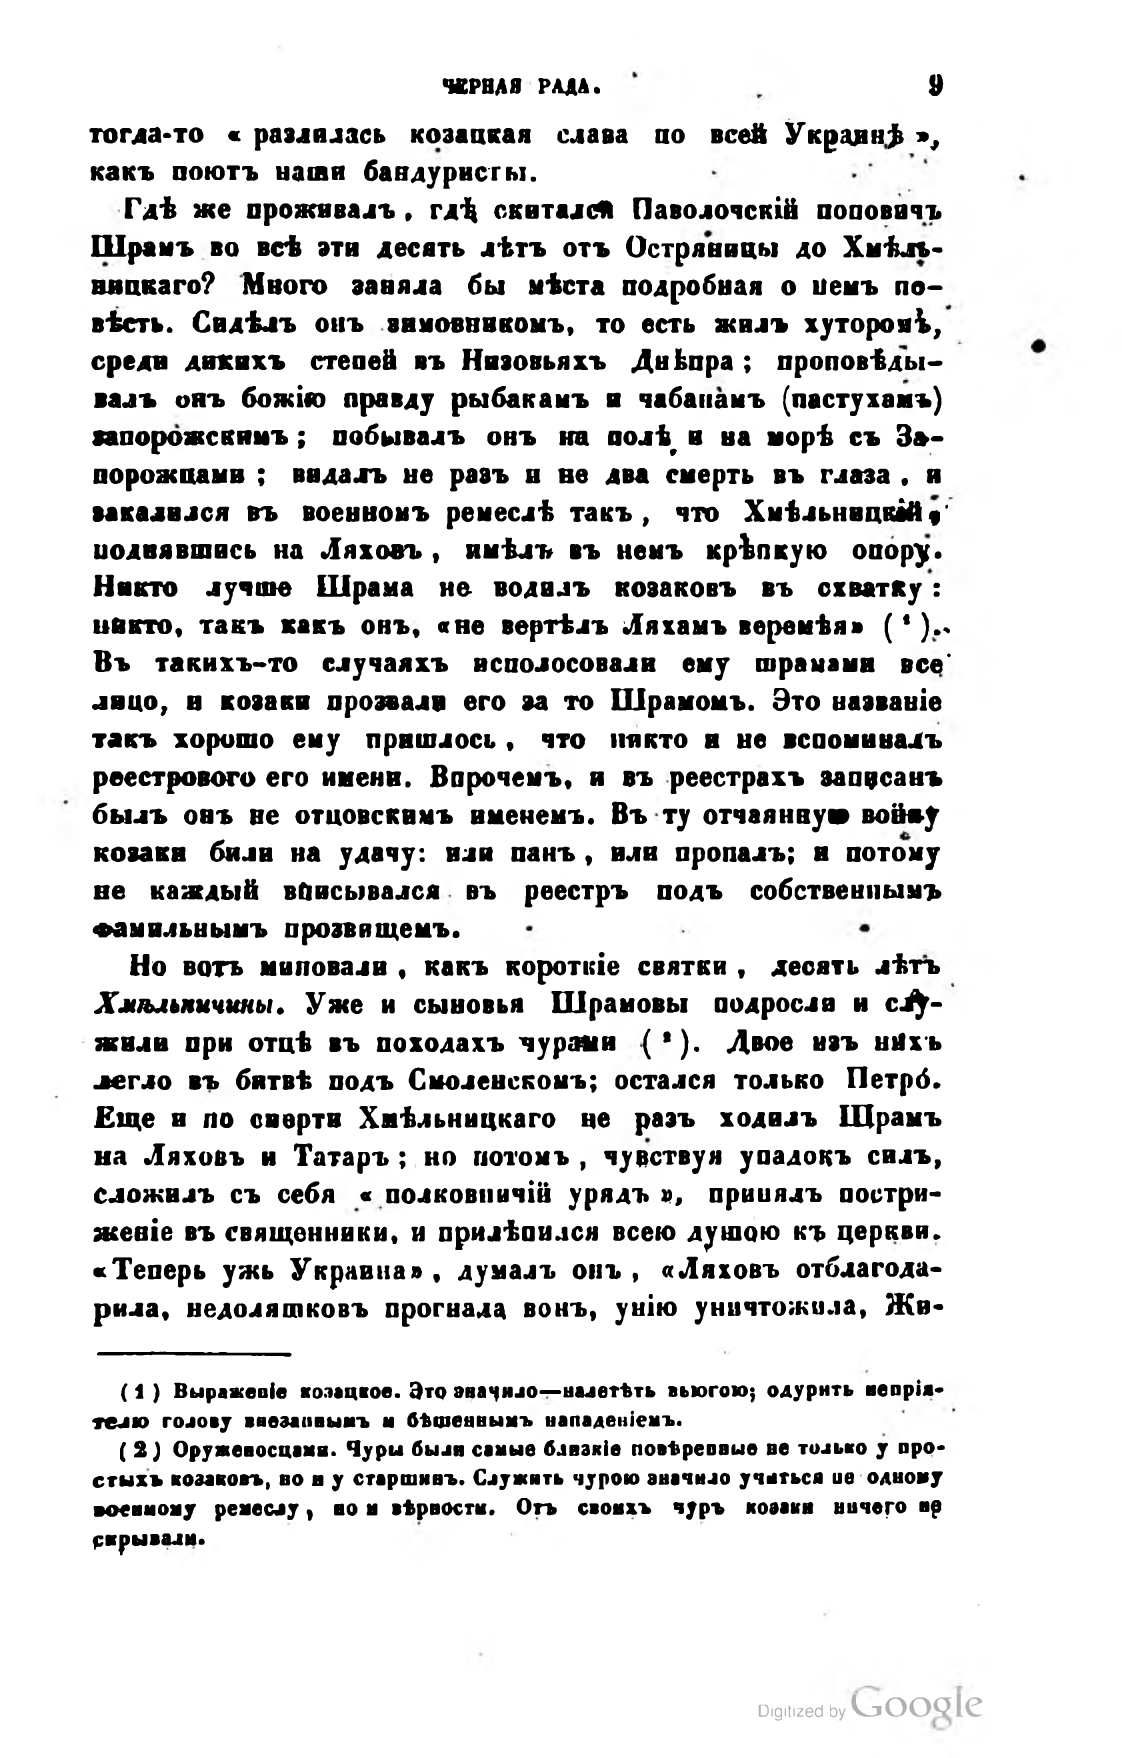ЧЕРНАЯ РАДА.                             9
тогда-то «разлилась козацкая слава по всей Украинѣ», какъ поютъ наши бандуристы.
Гдѣ же проживалъ, гдѣ скитался Паволочскій поповичъ Шрамъ во всѣ эти десять лѣтъ отъ Остряницы до Хмѣльницкаго? Много заняла бы мѣста подробная о немъ повѣсть. Сидѣлъ онъ зимовникомъ, то есть жилъ хуторомѣ, среди дикихъ степей въ Низовьяхъ Днѣпра; проповѣдывалъ онъ божію правду рыбакамъ и чабанамъ (пастухамъ) запорожскимъ; побывалъ онъ на полѣ, и на морѣ съ Запорожцами; видалъ не разъ и не два смерть въ глаза, и закалился въ военномъ ремеслѣ такъ, что Хмѣльницкій, поднявшись на Ляховъ, имѣлъ въ немъ крѣпкую опору. Никто лучше Шрама не водилъ Козаковъ въ схватку: никто, такъ какъ онъ, «не вертѣлъ Ляхамъ веремѣя» ( 1 ).Въ такихъ-то случаяхъ исполосовали ему шрамами все лицо, и козаки прозвали его за то Шрамомъ. Это названіе такъ хорошо ему пришлось, что никто и не вспоминалъ реестрового его имени. Впрочемъ, и въ реестрахъ записанъ былъ онъ не отцовскимъ именемъ. Въ ту отчаянную войну козаки били на удачу: или панъ, или пропалъ; и потому не каждый вписывался въ реестръ подъ собственнымъ фамильнымъ прозвищемъ.
Но вотъ миновали, какъ короткіе святки, десять лѣтъ Хмѣльничины. Уже и сыновья Шрамовы подросли и служили при отцѣ въ походахъ чурами ( 2 ). Двое изъ нихъ легло въ битвѣ подъ Смоленскомъ; остался только Петро. Еще и по смерти Хмѣльницкаго не разъ ходилъ Шрамъ на Ляховъ и Татаръ; но потомъ, чувствуя упадокъ силъ, сложилъ съ себя «полковничій урядъ», принялъ постриженіе въ священники, и прилѣпился всею душою къ церкви. «Теперь ужь Украина», думалъ онъ, «Ляховъ отблагодарила, недоляшковъ прогнала вонъ, унію уничтожила, Жи-
—
( 1 ) Выраженіе козацкое. Это значило — налетѣть вьюгою; одурить непріятелю голову внезапнымъ и бѣшеннымъ нападеніемъ.
( 2 ) Оруженосцами. Чуры были самые близкіе повѣренные не только у простыхъ Козаковъ, но и у старшинъ. Служить чурою значило учиться не одному военному ремеслу, но и вѣрности. Отъ своихъ чуръ козаки ничего не скрывали.
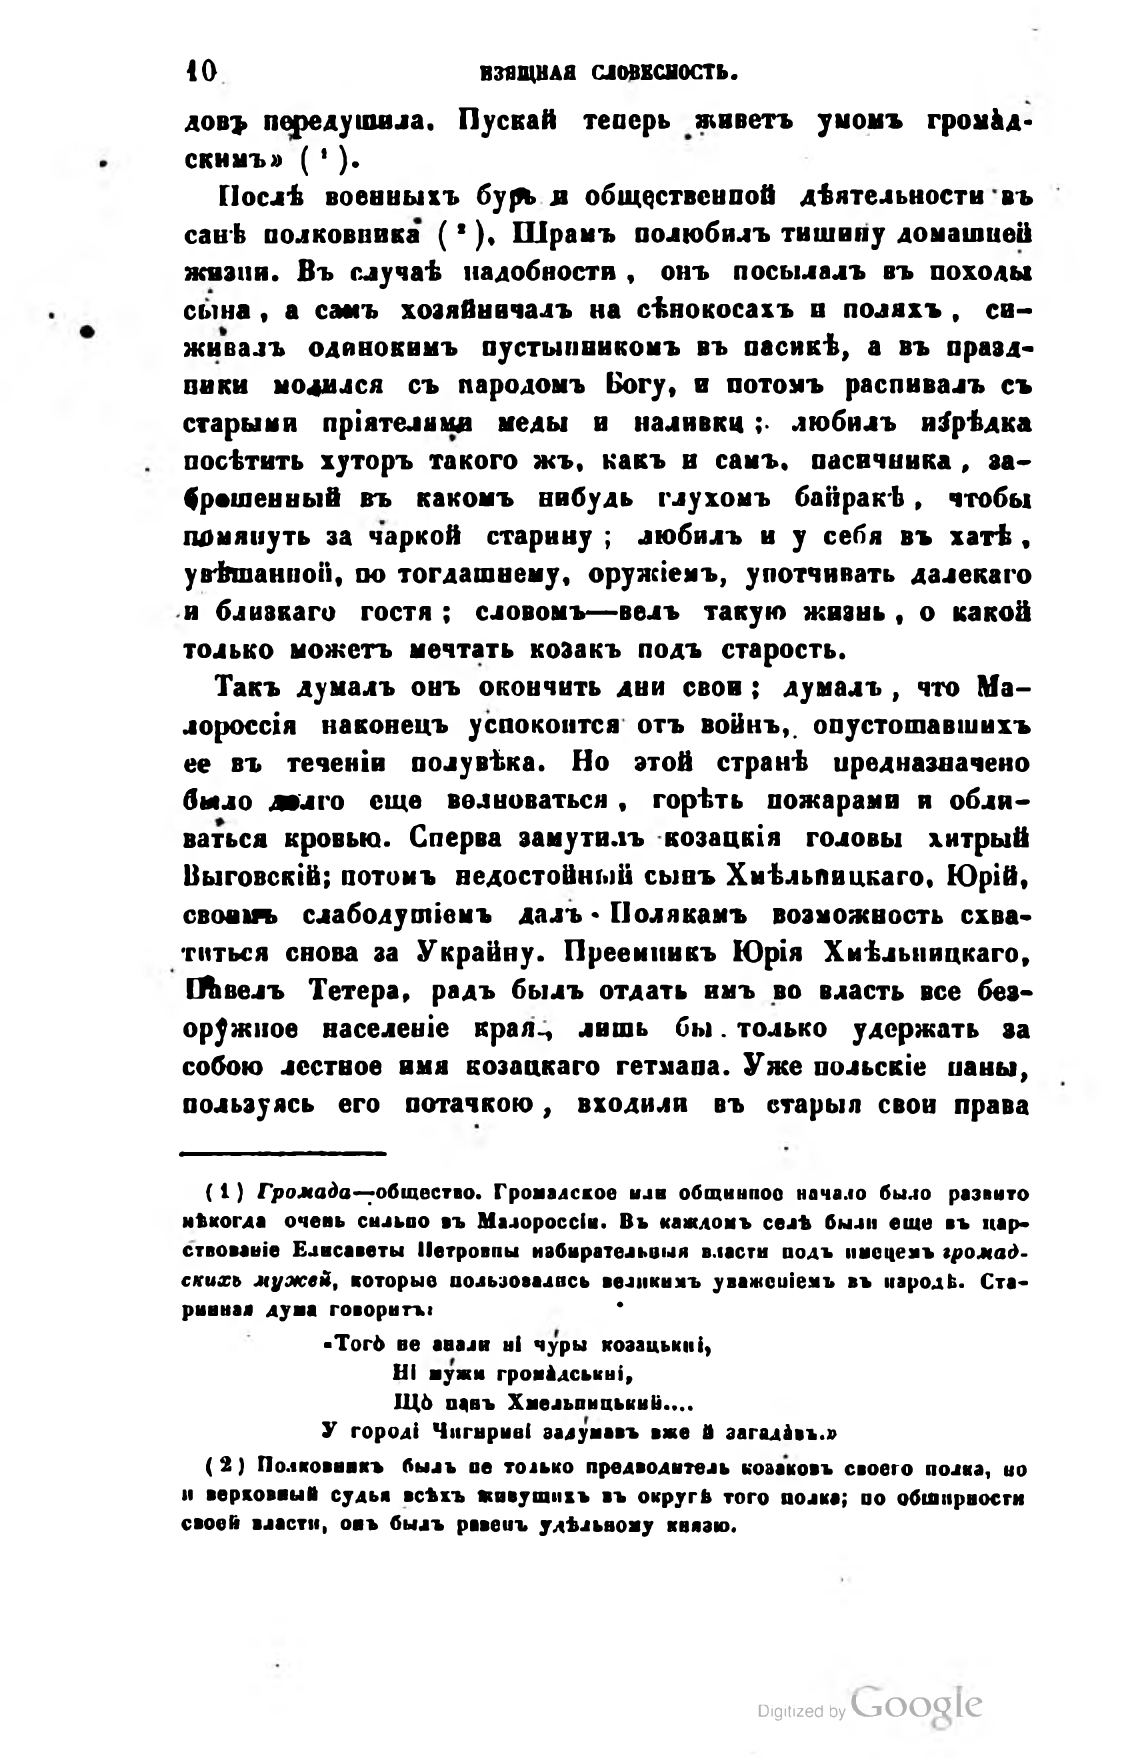10                       ИЗЯЩНАЯ СЛОВЕСНОСТЬ.
довъ передушила. Пускай теперь живетъ умомъ громадскимъ» ( 1 ).
Послѣ военныхъ бурь и общественной дѣятельности въ санѣ полковника ( 2 ), Шрамъ полюбилъ тишину домашней жизни. Въ случаѣ надобности, онъ посылалъ въ походы сына, а самъ хозяйничалъ на сѣнокосахъ и поляхъ, сиживалъ одинокимъ пустынникомъ въ пасикѣ, а въ праздники молился съ народомъ Богу, и потомъ распивалъ съ старыми пріятелями меды и наливки; любилъ изрѣдка посѣтить хуторъ такого жъ, какъ и самъ, пасичника, заброшенный въ какомъ нибудь глухомъ байракѣ, чтобы помянуть за чаркой старину; любилъ и у себя въ хатѣ, увѣшанной, по тогдашнему, оружіемъ, употчивать далекаго и близкаго гостя; словомъ — велъ такую жизнь, о какой только можетъ мечтать козакъ подъ старость.
Такъ думалъ онъ окончить дни свои; думалъ, что Малороссія наконецъ успокоится отъ войнъ, опустошавшихъ ее въ теченіи полувѣка. Но этой странѣ предназначено было долго еще волноваться, горѣть пожарами и обливаться кровью. Сперва замутилъ козацкія головы хитрый Выговскій; потомъ недостойный сынъ Хмѣльницкаго, Юрій, своимъ слабодушіемъ далъ Полякамъ возможность схватиться снова за Украйну. Преемникъ Юрія Хмѣльницкаго, Павелъ Тетера, радъ былъ отдать имъ во власть все безоружное населеніе края, лишь бы только удержать за собою лестное имя козацкаго гетмана. Уже польскіе паны, пользуясь его потачкою, входили въ старыя свои права
—
( 1 ) Громада — общество. Громадское или общинное начало было развито нѣкогда очень сильно въ Малороссіи. Вь каждомъ селѣ были еще въ царствованіе Елисаветы Петровны иэбирательныя власти подъ именеиъ громадскихь мужей, которые пользовались великимъ уваженіемъ въ народъ. Старинная дума говоритъ:
«Того не знали ні чуры козацькиі,
Ні мужи громадськиі,
Що панъ Хмельницький...
У городі Чигирині задумавъ вже й загадавъ.»
( 2 ) Полковникъ былъ не только предводитель Козаковъ своего полка, но и верховный судья всѣхъ живущихъ въ округѣ того полка; по обширности своей власти, онъ былъ равенъ удѣльному князю.
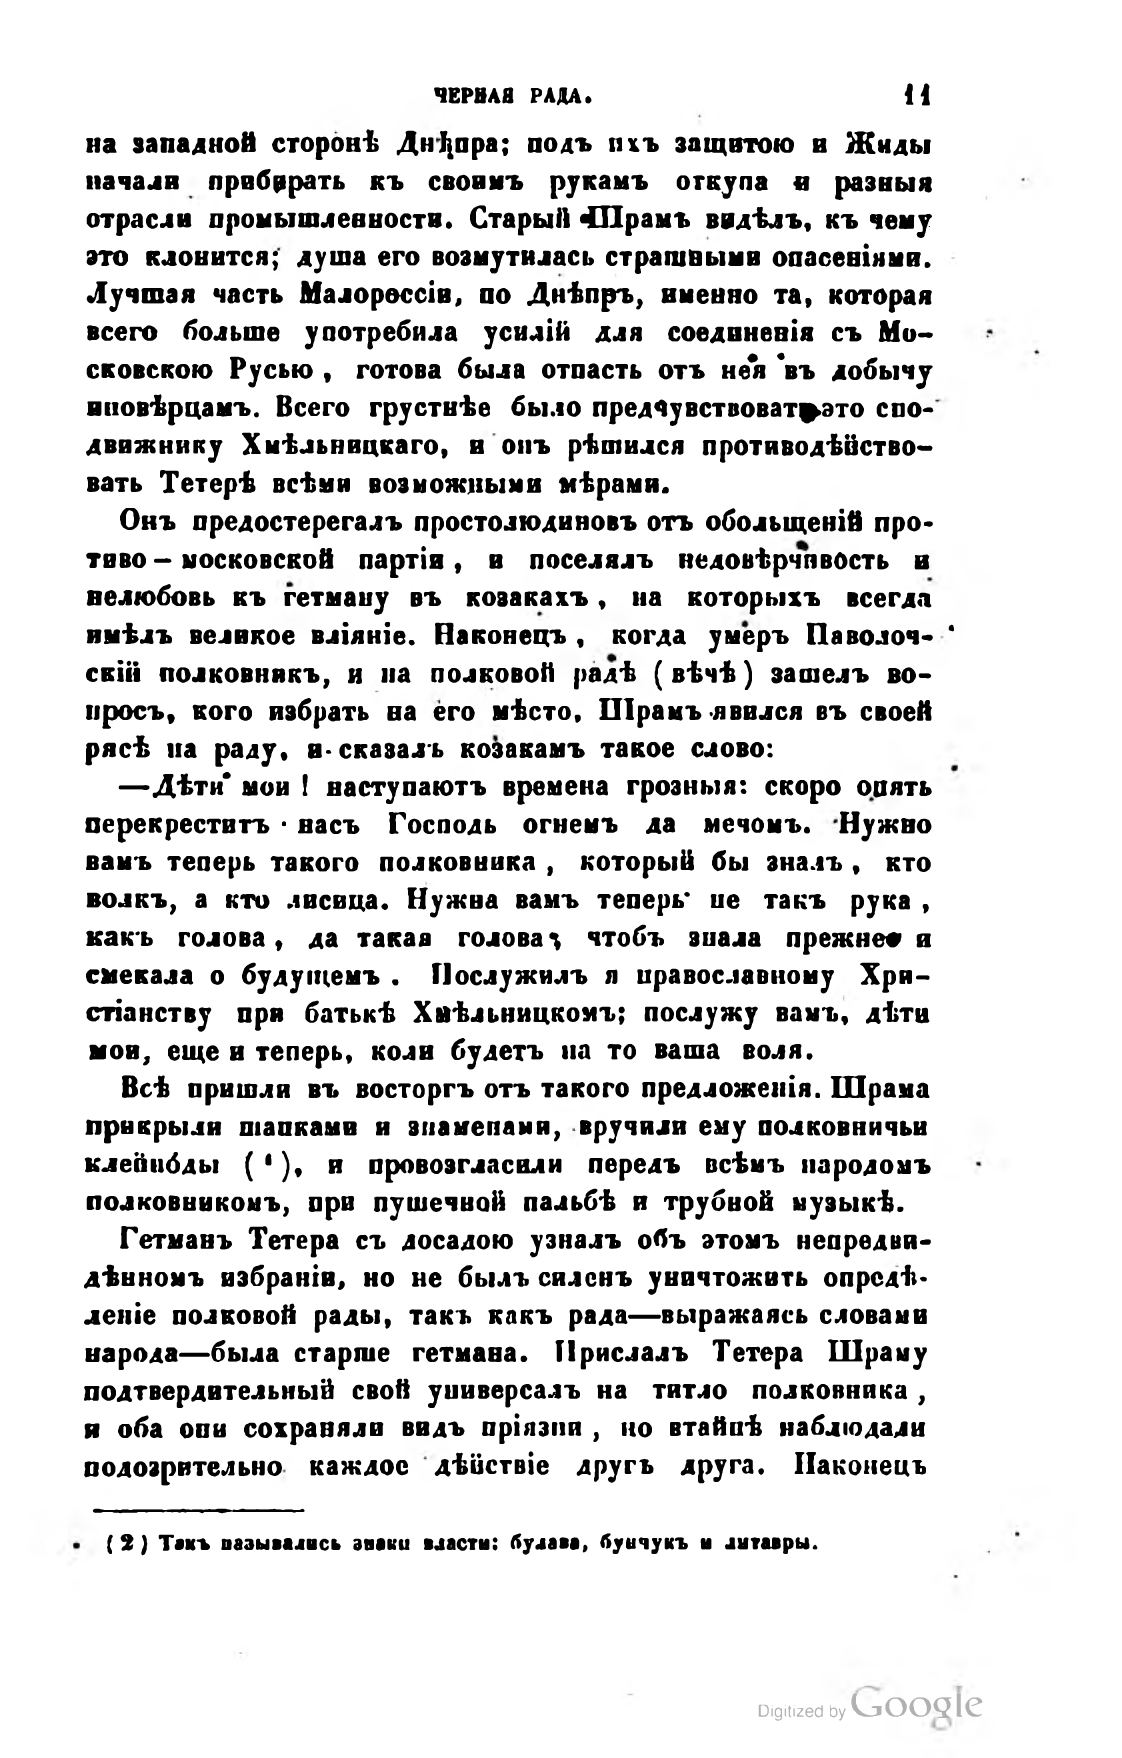ЧЕРНАЯ РАДА.                                 11
на западной сторонѣ Днѣпра; подъ ихъ защитою и Жиды начали прибирать къ своимъ рукамъ откупа и разныя отрасли промышленности. Старый Шрамъ видѣлъ, къ чему это клонится; душа его возмутилась страшными опасеніями. Лучшая часть Малороссіи, по Днѣпръ, именно та, которая всего больше употребила усилій для соединенія съ Московскою Русью, готова была отпасть отъ нея въ добычу иновѣрцамъ. Всего грустнѣе было предчувствовать это сподвижнику Хмѣльницкаго, и онъ рѣшился противодѣйствовать Тетерѣ всѣми возможными мѣрами.
Онъ предостерегалъ простолюдиновъ отъ обольщеній противо — московской партіи, и поселялъ недовѣрчивость и нелюбовь къ гетману въ козакахъ, на которыхъ всегда имѣлъ великое вліяніе. Наконецъ, когда умеръ Паволочскій полковникъ, и на полковой радѣ (вѣчѣ) зашелъ вопросъ, кого избрать на его мѣсто, Шрамъ явился въ своей рясѣ на раду, и сказалъ козакамъ такое слово:
— Дѣти мои! наступаютъ времена грозныя: скоро опять перекреститъ насъ Господь огнемъ да мечомъ. Нужно вамъ теперь такого полковника, который бы зналъ, кто волкъ, а кто лисица. Нужна вамъ теперь не такъ рука, какъ голова, да такая голова, чтобъ знала прежнее и смекала о будущемъ. Послужилъ я православному Христіанству при батькѣ Хмѣльницкомъ; послужу вамъ, дѣти мои, еще и теперь, коли будетъ на то ваша воля.
Всѣ пришли въ восторгъ отъ такого предложенія. Шрама прикрыли шапками и знаменами, вручили ему полковничьи клейноды ( 1 ), и провозгласили передъ всѣмъ народомъ полковникомъ, при пушечной пальбѣ и трубной музыкѣ.
Гетманъ Тетера съ досадою узналъ объ этомъ непредвидѣнномъ избраніи, но не былъ силенъ уничтожить опредѣленіе полковой рады, такъ какъ рада — выражаясь словами народа — была старше гетмана. Прислалъ Тетера Шраму подтвердительный свой универсалъ на титло полковника, и оба они сохраняли видъ пріязни, но втайнѣ наблюдали подозрительно каждое дѣйствіе другъ друга. Наконецъ
—
( 2 ) Такъ назывались знаки власти: булава, бунчукь и литавры.